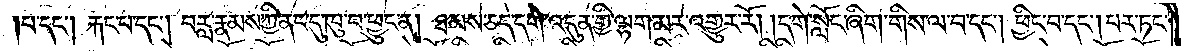པ་དང༌། རྐང་པ་དང༌། བརླ་རྣམས་ཀྱི་ནང་དུ་ཁུ་བ་ཕྱུང་ན། ཐམས་ཅད་དགེ་འདུན་གྱི་ལྷག་མར་འགྱུར་རོ། །དགེ་སློང་ཞིག་གིས་ལ་བ་དང༌། ཕྱིང་བ་དང༌། པར་ཏང་
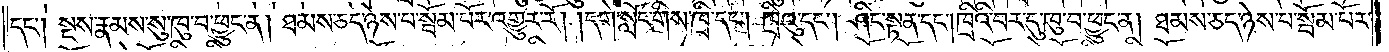དང༌། སྔས་རྣམས་སུ་ཁུ་བ་ཕྱུང་ན། ཐམས་ཅད་ཉེས་པ་སྦོམ་པོར་འགྱུར་རོ། །དགེ་སློང་གིས་ཁྲི་དང༌། ཁྲིའུ་དང༌། ཤིང་སྟན་དང༌། ཁྲིའི་བར་དུ་ཁུ་བ་ཕྱུང་ན། ཐམས་ཅད་ཉེས་པ་སྦོམ་པོར་
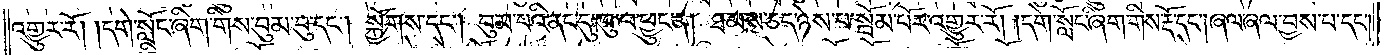འགྱུར་རོ། །དགེ་སློང་ཞིག་གིས་བུམ་བུ་དང༌། སྐྱོགས་དང༌། བུམ་པའི་ནང་དུ་ཁུ་བ་ཕྱུང་ན། ཐམས་ཅད་ཉེས་པ་སྦོམ་པོར་འགྱུར་རོ། །དགེ་སློང་ཞིག་གིས་རྡོ་དང༌། ཞལ་ཞལ་བྱས་པ་དང༌།
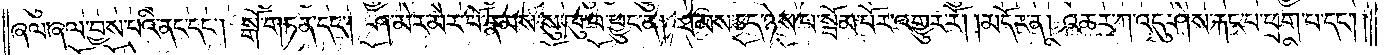ཞལ་ཞལ་བྱས་པའི་ནང་དང༌། སྒོག་ཏན་དང༌། ཤ་མེར་པོར་རྣམས་སུ་ཁུ་བ་ཕྱུང་ན། ཐམས་ཅད་ཉེས་པ་སྦོམ་པོར་འགྱུར་རོ། །མདོར་ན། འཆར་ཀ་འདུ་ཤེས་རྐང་པ་ཕྲག་པ་དང༌། །
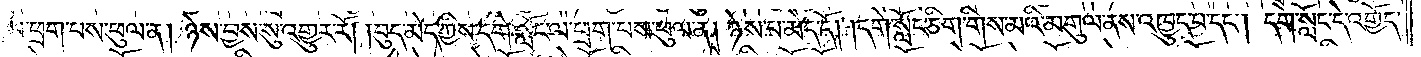ལ་ཕྲག་པས་ཕུལ་ན། ཉེས་བྱས་སུ་འགྱུར་རོ། །བུད་མེད་ཀྱིས་དགེ་སློང་ལ་ཕྲག་པས་ཕུལ་ན། ཉེས་པ་མེད་དོ། །དགེ་སློང་ཅིག་གིས་མའི་མགུལ་ནས་འཁྱུད་པ་དང༌། དགེ་སློང་དེ་འགྱོད་
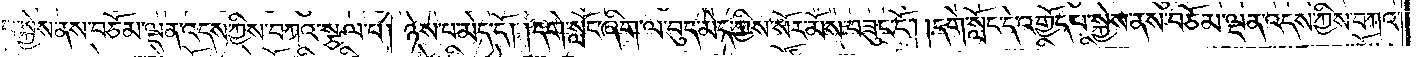པ་སྐྱེས་ནས་བཅོམ་ལྡན་འདས་ཀྱིས་བཀའ་སྩལ་པ། ཉེས་པ་མེད་དོ། །དགེ་སློང་ཞིག་ལ་བུད་མེད་ཀྱིས་སོར་མོས་བཟུང་ངོ༌། །དགེ་སློང་དེ་འགྱོད་པ་སྐྱེས་ནས་བཅོམ་ལྡན་འདས་ཀྱིས་བཀའ་
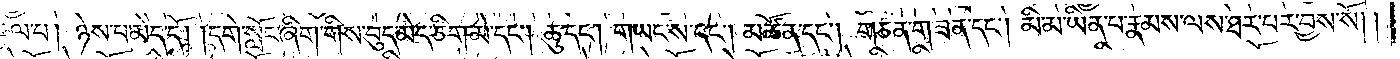སྩལ་པ། ཉེས་པ་མེད་དོ། །དགེ་སློང་ཞིག་གིས་བུད་མེད་ཅིག་མེ་དང༌། ཆུ་དང༌། གཡང་ས་དང༌། མཚོན་དང༌། གཅན་གཟན་དང༌། མི་མ་ཡིན་པ་རྣམས་ལས་ཐར་པར་བྱས་སོ། །
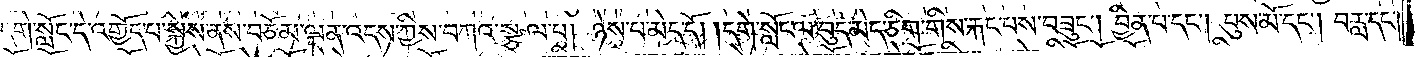དགེ་སློང་དེ་འགྱོད་པ་སྐྱེས་ནས་བཅོམ་ལྡན་འདས་ཀྱིས་བཀའ་སྩལ་པ། ཉེས་པ་མེད་དོ། །དགེ་སློང་ལ་བུད་མེད་ཅིག་གིས་རྐང་པས་བཟུང༌། བྱིན་པ་དང༌། པུས་མོ་དང༌། བརླ་དང༌།
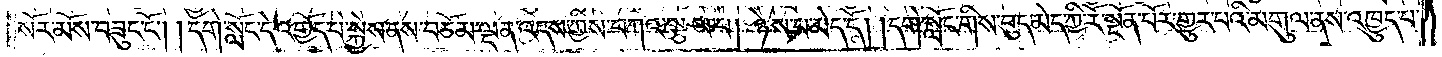སོར་མོས་བཟུང་ངོ༌། །དགེ་སློང་དེ་འགྱོད་པ་སྐྱེས་ནས་བཅོམ་ལྡན་འདས་ཀྱིས་བཀའ་སྩལ་པ། ཉེས་པ་མེད་དོ། །དགེ་སློང་གིས་བུད་མེད་ཀྱི་རི་སྔོན་པོར་གྱུར་པའི་མགུལ་ནས་འཁྱུད་པ་
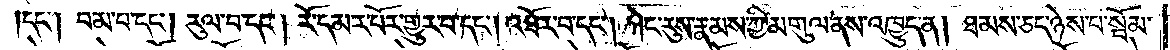དང༌། བམ་པ་དང༌། རུལ་བ་དང༌། རོ་དམར་པོར་གྱུར་པ་དང༌། འཐོར་བ་དང༌། ཀེང་རུས་རྣམས་ཀྱི་མགུལ་ནས་འཁྱུད་ན། ཐམས་ཅད་ཉེས་པ་སྦོམ་
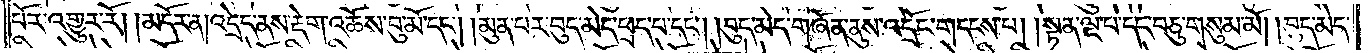པོར་འགྱུར་རོ། །མདོར་ན། འདྲེད་ནས་རྡེག་འཆོས་བུ་མོ་དང༌། །མུན་པར་བུད་མེད་ཕྲད་པ་དང༌། །བུད་མེད་གཞོན་ནུས་འདྲོང་གདངས་པ། །སྟན་ལྔ་པ་དང་བཅུ་གསུམ་མོ། །བུད་མེད་
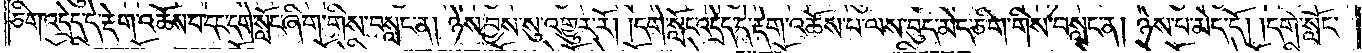ཅིག་འདྲེད་དེ་རྡེག་འཆོས་པ་དང་དགེ་སློང་ཞིག་གིས་བསླང་ན། ཉེས་བྱས་སུ་འགྱུར་རོ། །དགེ་སློང་འདྲེད་དེ་རྡེག་འཆོས་པ་ལས་བུད་མེད་ཅིག་གིས་བསླང་ན། ཉེས་པ་མེད་དོ། །དགེ་སློང་
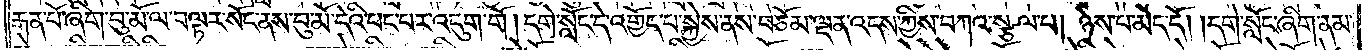རྒན་པོ་ཞིག་བུ་མོ་ལ་བལྟར་སོང་ནས་བུ་མོ་དེའི་པང་པར་འདུག་གོ །དགེ་སློང་དེ་འགྱོད་པ་སྐྱེས་ནས་བཅོམ་ལྡན་འདས་ཀྱིས་བཀའ་སྩལ་པ། ཉེས་པ་མེད་དོ། །དགེ་སློང་ཞིག་ནམ་
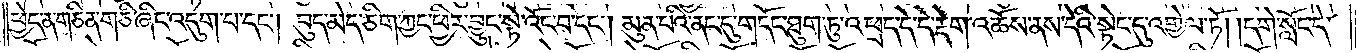ཕྱེད་ན་གཅིན་གཅི་ཞིང་འདུག་པ་དང༌། བུད་མེད་ཅིག་ཀྱང་ཕྱིར་བྱུང་སྟེ་འོང་བ་དང༌། མུན་པའི་ནང་དུ་གདོང་ཐུག་ཏུ་འཕྲད་དེ་དེ་རྡེག་འཆོས་ནས་དེའི་སྟེང་དུ་འགྱེལ་ཏོ། །དགེ་སློང་དེ་
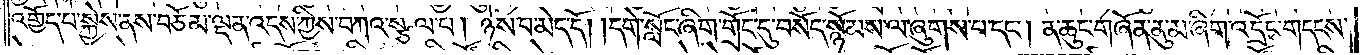འགྱོད་པ་སྐྱེས་ནས་བཅོམ་ལྡན་འདས་ཀྱིས་བཀའ་སྩལ་པ། ཉེས་པ་མེད་དོ། །དགེ་སློང་ཞིག་གྲོང་དུ་བསོད་སྙོམས་ལ་ཞུགས་པ་དང༌། ན་ཆུང་གཞོན་ནུ་མ་ཞིག་འདྲོང་གདངས་
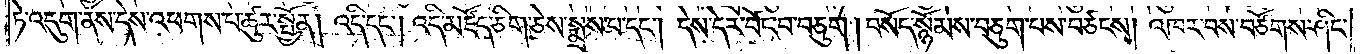ཏེ་འདུག་ནས་དེས་འཕགས་པ་ཚུར་སྤྱོན། འདི་དང༌། འདི་མཛོད་ཅིག་ཅེས་སྨྲས་པ་དང༌། དེས་དེར་བོང་བ་བཅུག །བསོད་སྙོམས་བཅུག་པས་བཙངས། འཁར་བས་བཙོགས་ཤིང་
